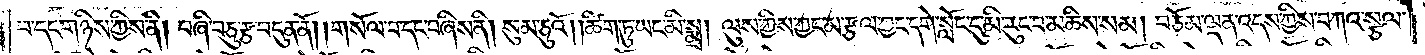བ་དང་གཉིས་ཀྱིས་ནི། བཞི་བཅུ་རྩ་བདུན་ནོ། །གསོལ་བ་དང་བཞིས་ནི། སུམ་ཅུའོ། །ཚིག་ཏུ་ཡང་མི་སྨྲ། ལུས་ཀྱིས་ཀྱང་མ་རྩལ་ཀྱང་དགེ་སློང་དུ་མི་རུང་བ་མཆིས་སམ། བཅོམ་ལྡན་འདས་ཀྱིས་བཀའ་སྩལ་
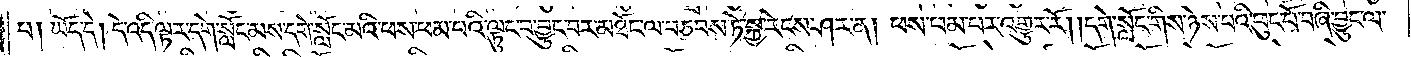པ། ཡོད་དེ། དེ་འདི་ལྟར་དགེ་སློང་མས་དགེ་སློང་མའི་ཕས་ཕམ་པའི་ལྟུང་བ་བྱུང་བར་མཐོང་ལ་བཅབས་ཏེ་སྐྱ་རེངས་ཤར་ན། ཕས་ཕམ་པར་འགྱུར་རོ། །དགེ་སློང་གིས་ཉེས་པའི་ཕུང་པོ་བཞི་བྱུང་ལ་
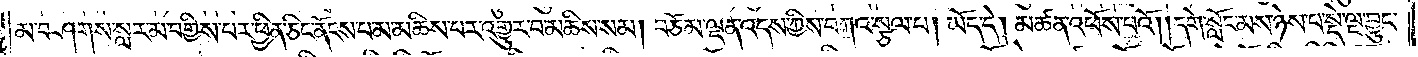མ་བཤགས་སླར་མ་བགྱིས་པར་ཕྱིན་ཅིང་ནོངས་པ་མ་མཆིས་པར་འགྱུར་བ་མཆིས་སམ། བཅོམ་ལྡན་འདས་ཀྱིས་བཀའ་སྩལ་པ། ཡོད་དེ། མཚན་འཕོས་པའོ། །དགེ་སློང་མས་ཉེས་པ་སྡེ་ལྔ་བྱུང་
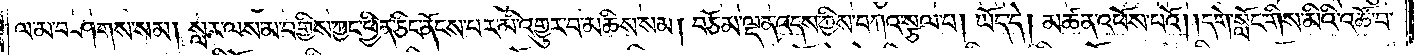ལ་མ་བཤགས་སམ། སླར་ལས་མ་བགྱིས་ཀྱང་ཕྱིན་ཅིང་ནོངས་པར་མི་འགྱུར་བ་མཆིས་སམ། བཅོམ་ལྡན་འདས་ཀྱིས་བཀའ་སྩལ་པ། ཡོད་དེ། མཚན་འཕོས་པའོ། །དགེ་སློང་གིས་མིའི་འཚོ་བ་
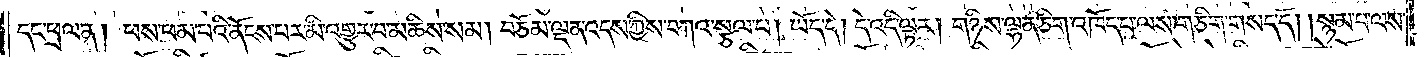དང་ཕྲལ་ན། ཕས་ཕམ་པའི་ནོངས་པར་མི་འགྱུར་བ་མཆིས་སམ། བཅོམ་ལྡན་འདས་ཀྱིས་བཀའ་སྩལ་པ། ཡོད་དེ། དེ་འདི་ལྟར། གཉིས་ལྷན་ཅིག་འཁོད་པ་ལས་གཅིག་གསད་དོ། །སྙམ་པ་ལས་
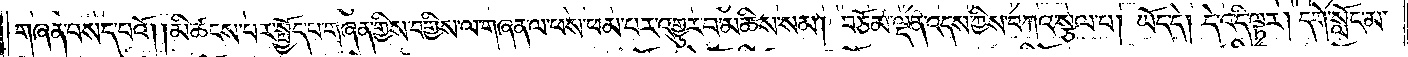གཞན་བསད་པའོ། །མི་ཚངས་པར་སྤྱོད་པ་གཞན་གྱིས་བགྱིས་ལ་གཞན་ལ་ཕས་ཕམ་པར་འགྱུར་བ་མཆིས་སམ། བཅོམ་ལྡན་འདས་ཀྱིས་བཀའ་སྩལ་པ། ཡོད་དེ། དེ་འདི་ལྟར། དགེ་སློང་མ་
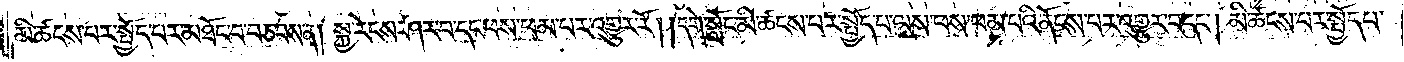མི་ཚངས་པར་སྤྱོད་པར་མཐོང་བ་བཅབས་ན། སྐྱ་རེངས་ཤར་བ་དང་ཕས་ཕམ་པར་འགྱུར་རོ། །དགེ་སློང་མི་ཚངས་པར་སྤྱོད་པ་ལས་ཕས་ཕམ་པའི་ནོངས་པར་འགྱུར་བ་དང༌། མི་ཚངས་པར་སྤྱོད་པ་
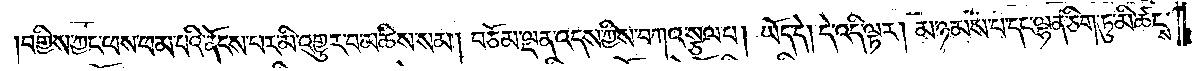བགྱིས་ཀྱང་ཕས་ཕམ་པའི་ནོངས་པར་མི་འགྱུར་བ་མཆིས་སམ། བཅོམ་ལྡན་འདས་ཀྱིས་བཀའ་སྩལ་པ། ཡོད་དེ། དེ་འདི་ལྟར། མ་ཉམས་པ་དང་ལྷན་ཅིག་ཏུ་མི་ཚངས་
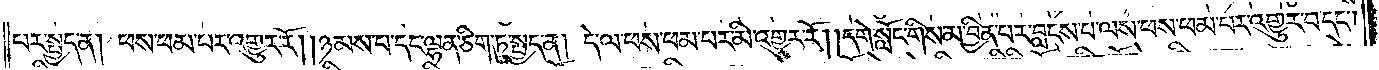པར་སྤྱད་ན། ཕས་ཕམ་པར་འགྱུར་རོ། །ཉམས་པ་དང་ལྷན་ཅིག་ཏུ་སྤྱད་ན། དེ་ལ་ཕས་ཕམ་པར་མི་འགྱུར་རོ། །དགེ་སློང་གིས་མ་བྱིན་པར་བླངས་པ་ལས་ཕས་ཕམ་པར་འགྱུར་བ་དང༌།
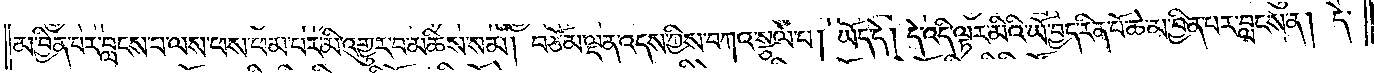མ་བྱིན་པར་བླངས་པ་ལས་ཕས་ཕམ་པར་མི་འགྱུར་བ་མཆིས་སམ། བཅོམ་ལྡན་འདས་ཀྱིས་བཀའ་སྩལ་པ། ཡོད་དེ། དེ་འདི་ལྟར་མིའི་ཡོ་བྱད་རིན་པོ་ཆེ་མ་བྱིན་པར་བླངས་ན། དེ་
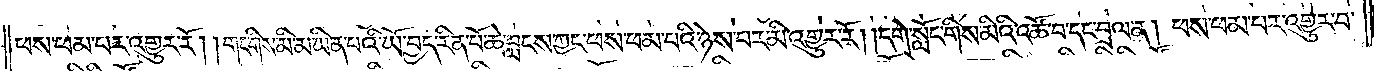ཕས་ཕམ་པར་འགྱུར་རོ། །གང་གིས་མི་མ་ཡིན་པའི་ཡོ་བྱད་རིན་པོ་ཆེ་བླངས་ཀྱང་ཕས་ཕམ་པའི་ཉེས་པར་མི་འགྱུར་རོ། །དགེ་སློང་གིས་མིའི་འཚོ་བ་དང་བྲལ་ན། ཕས་ཕམ་པར་འགྱུར་བ་
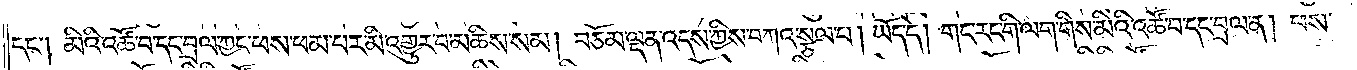དང༌། མིའི་འཚོ་བ་དང་བྲལ་ཀྱང་ཕས་ཕམ་པར་མི་འགྱུར་བ་མཆིས་སམ། བཅོམ་ལྡན་འདས་ཀྱིས་བཀའ་སྩལ་པ། ཡོད་དེ། གང་རང་གི་ལག་གིས་མིའི་འཚོ་བ་དང་བྲལ་ན། ཕས་
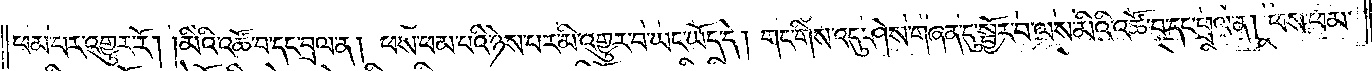ཕམ་པར་འགྱུར་རོ། །མིའི་འཚོ་བ་དང་བྲལ་ན། ཕས་ཕམ་པའི་ཉེས་པར་མི་འགྱུར་བ་ཡང་ཡོད་དེ། གང་གིས་འདུ་ཤེས་གཞན་དུ་སྦྱོར་བ་ལས་མིའི་འཚོ་བ་དང་ཕྲལ་ན། ཕས་ཕམ་
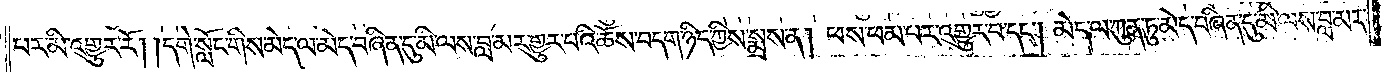པར་མི་འགྱུར་རོ། །དགེ་སློང་གིས་མེད་ལ་མེད་བཞིན་དུ་མི་ལས་བླ་མར་གྱུར་པའི་ཆོས་བདག་ཉིད་ཀྱིས་སྨྲས་ན། ཕས་ཕམ་པར་འགྱུར་བ་དང༌། མེད་ལ་ཀུན་ཏུ་མེད་བཞིན་དུ་མི་ལས་བླ་མར་
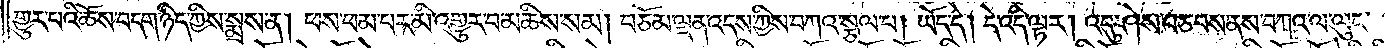གྱུར་པའི་ཆོས་བདག་ཉིད་ཀྱིས་སྨྲས་ན། ཕས་ཕམ་པར་མི་འགྱུར་བ་མཆིས་སམ། བཅོམ་ལྡན་འདས་ཀྱིས་བཀའ་སྩལ་པ། ཡོད་དེ། དེ་འདི་ལྟར། འདུ་ཤེས་བཅབས་ནས་བཀའ་ལ་ལུང་
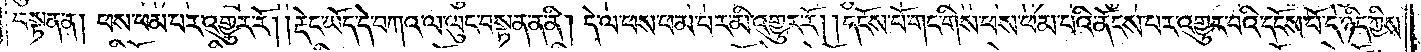བསྟན་ན། ཕས་ཕམ་པར་འགྱུར་རོ། །རྡེང་ཡོད་དེ་བཀའ་ལ་ལུང་བསྟན་ན་ནི། དེ་ལ་ཕས་ཕམ་པར་མི་འགྱུར་རོ། །དངོས་པོ་གང་གིས་ཕས་ཕམ་པའི་ནོངས་པར་འགྱུར་བའི་དངོས་པོ་དེ་ཉིད་ཀྱིས་
